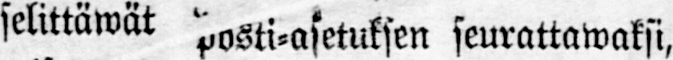selittäwät Posti-asetuksen seurattawaksi,
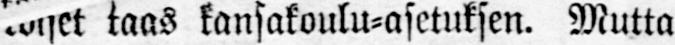toiset taas kansakoulu-asetuksen. Mutta
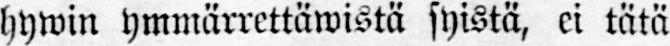hywin ymmärrettäwistä syistä, ei tätä
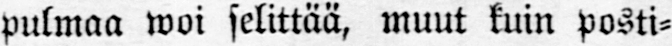pulmaa woi selittää, muut tuin posti-
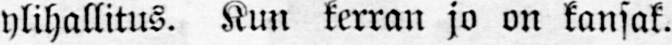ylihallitus. Kun kerran jo on kansak.
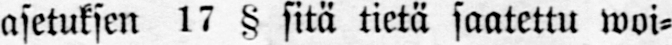asetuksen 17 § sitä tietä saatettu woi-
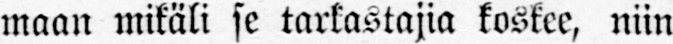maan mikäli se tarkastajia koskee, niin
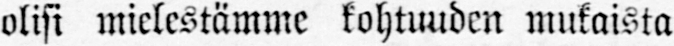ulisi mielestämme kohtuuden mukaista
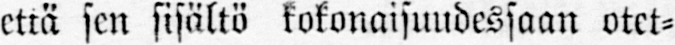että sen sisältö kokonaisuudessaan otet-
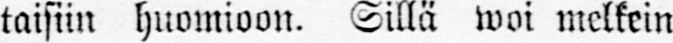taisiin huomioon, Sillä woi melkein
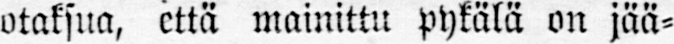otaksua, että mainittu pykälä on jää-
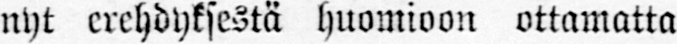nyt erehdyksestä huomioon ottamatta
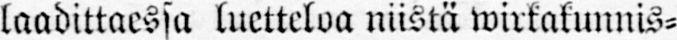laadittaessa luetteloa niistä wirkakunnis-
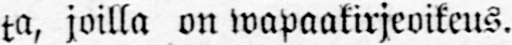ta, joilla on wapaakirjeoikeus.
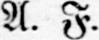A. F.
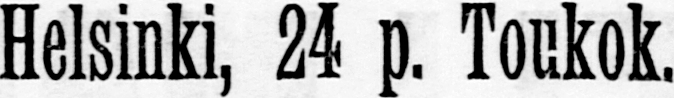Helsinki, 24 p. Toukok.
